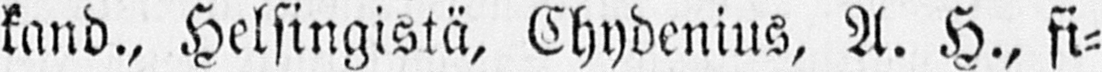kand., Helsingistä, Chydenius, A. H., fi-
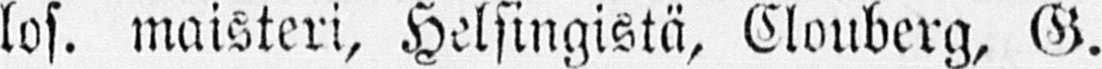los. maisteri, Helsingistä, G.
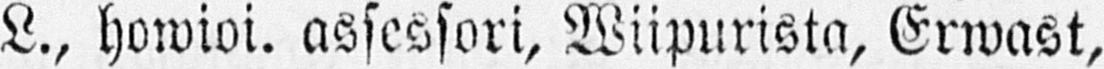L., howioi. assessori, Wiipurista, Erwast,
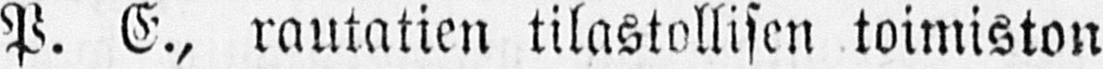P. E., rautatien tilastollisen toimiston
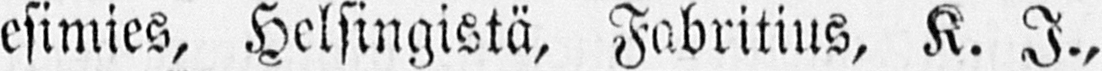esimies, Helsingistä, Fabritius, K. I.,
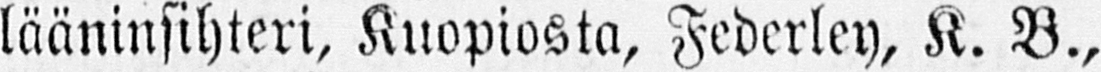lääninsihteri, Kuopiosta, Federley, K. B.,
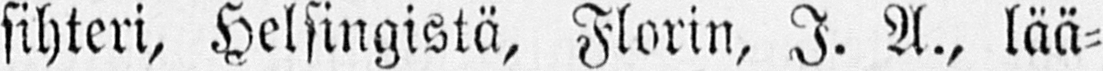sihteri, Helsingistä, Florin, I. A., lää-
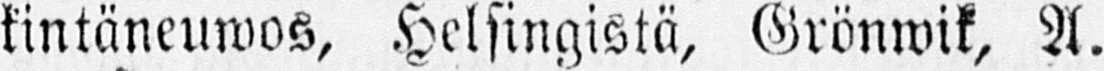kintäneuwos, Helsingistä, Grönwik, A.
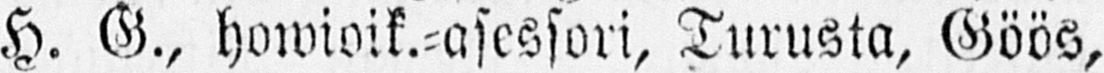H. G., howioik.-asessori, Turusta, Göös,
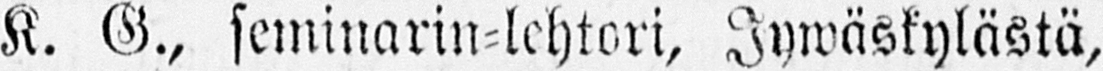K. G., seminarin-lehtori, Jywäskylästä,
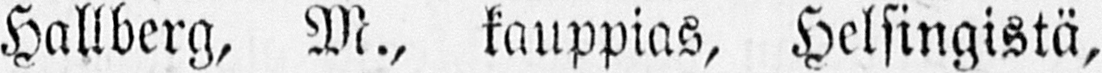Hallberg, M., kauppias, Helsingistä,
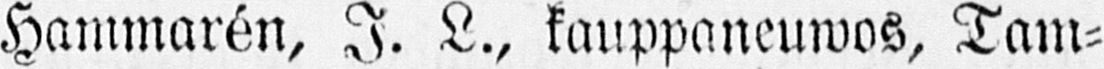Hammarén, I. L., kauppaneuwos, Tam-
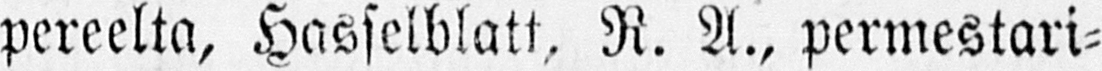pereelta, Hasselblatt, R. A., permestari-
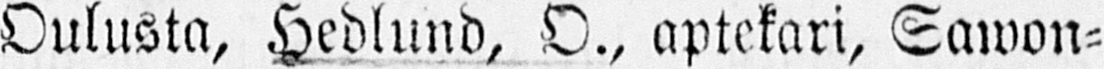Oulusta, Hedlund, O., aptekari, Sanwon-
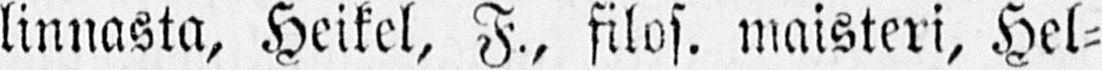linnasta, Heikel, F., filos. maisteri, Hel-
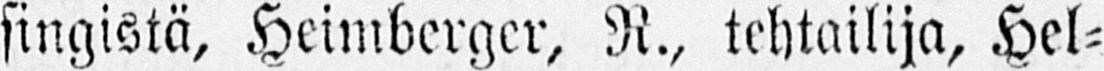singistä, Heimberger, R., tehtailija, Hel-
